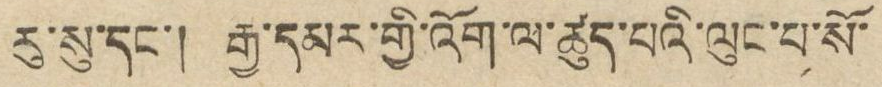རུ་སུ་དང་། རྒྱ་དམར་གྱི་འོག་ལ་ཚུད་པའི་ལུང་པ་སོ་
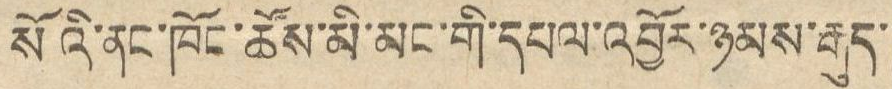སོའི་ནང་ཁོང་ཚོས་མི་མང་གི་དཔལ་འབྱོར་ཉམས་རྒུད་
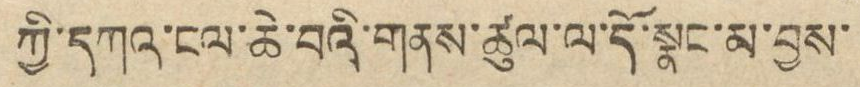ཀྱི་དཀའ་ངལ་ཆེ་བའི་གནས་ཚུལ་ལ་དོ་སྣང་མ་བྱས་
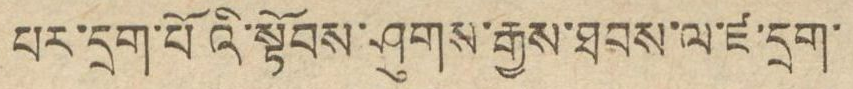པར་དྲག་པོའི་སྟོབས་ཤུགས་རྒྱས་ཐབས་ལ་ཛ་དྲག་
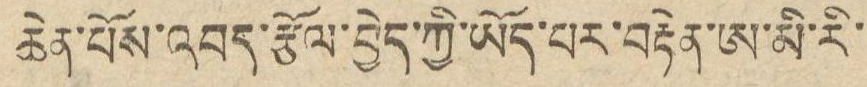ཆེན་པོས་འབད་རྩོལ་བྱེད་ཀྱི་ཡོད་པར་བརྟེན་ཨ་མི་རི་
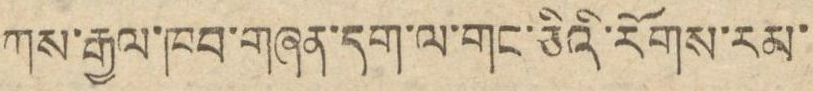ཀས་རྒྱལ་ཁབ་གཞན་དག་ལ་གང་ཅིའི་རོགས་རམ་
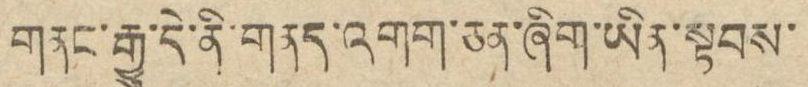གནང་རྒྱུ་དེ་ནི་གནད་འགག་ཅན་ཞིག་ཡིན་སྟབས་
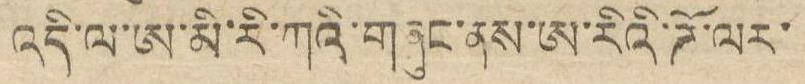འདི་ལ་ཨ་མི་རི་ཀའི་གཞུང་ནས་ཨ་རིའི་ཌོ་ལར་
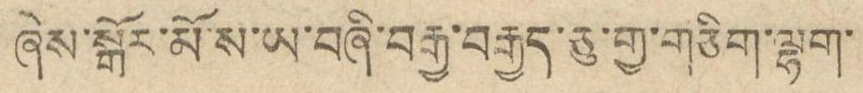ཞེས་སྒོར་མོ་ས་ཡ་བཞི་བརྒྱ་བརྒྱད་ཅུ་གྱ་གཅིག་ལྷག་
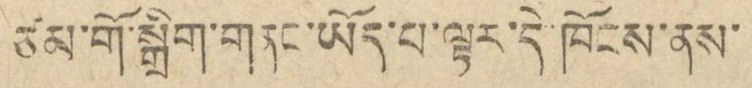ཙམ་གོ་སྒྲིག་གནང་ཡོད་པ་ལྟར་དེ་ཁོངས་ནས་
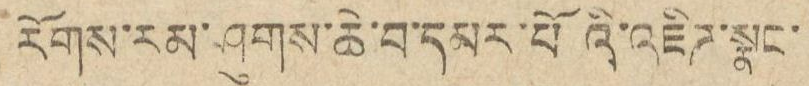རོགས་རམ་ཤུགས་ཆེ་བ་དམར་པོའི་འཇིཌ་སྣང་
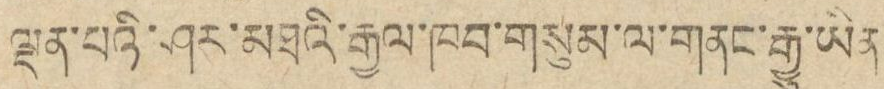ལྡན་པའི་ཤར་མཐའི་རྒྱལ་ཁབ་གསུམ་ལ་གནང་རྒྱུ་ཡིན།
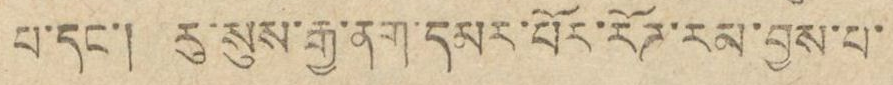པ་དང་། རུ་སུས་རྒྱ་ནག་དམར་པོར་རོཌ་རམ་བྱས་པ་
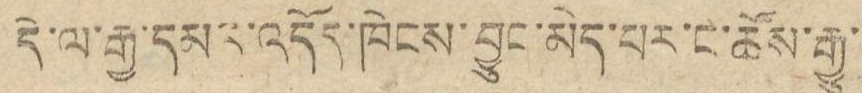དེ་ལ་རྒྱ་དམ་ར་འདོད་ཁེངས་བྱུང་མེད་པར་ང་ཚོས་རྒྱུ་
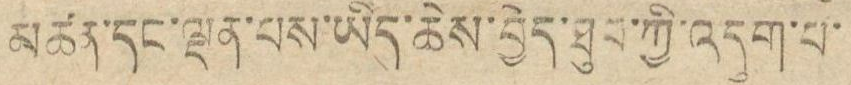མཚན་དང་ལྡན་པས་ཡིད་ཆེས་བྱེད་ཐུབ་ཀྱི་འདུག་པ་
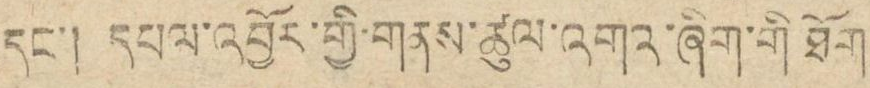དང་། དཔལ་འབྱོར་གྱི་གནས་ཚུལ་འགའ་ཞིག་གི་ཐོག
